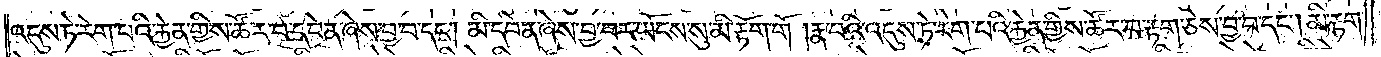འདུས་ཏེ་རེག་པའི་རྐྱེན་གྱིས་ཚོར་བ་དབེན་ཞེས་བྱ་བ་དང༌། མི་དབེན་ཞེས་བྱ་བར་ཡོངས་སུ་མི་རྟོག་གོ །རྣ་བའི་འདུས་ཏེ་རེག་པའི་རྐྱེན་གྱིས་ཚོར་བ་རྟག་ཅེས་བྱ་བ་དང༌། མི་རྟག་
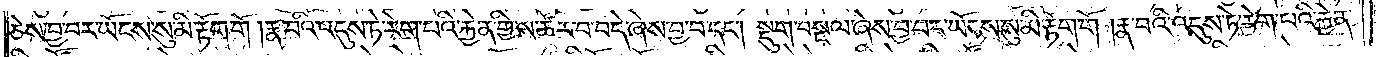ཅེས་བྱ་བར་ཡོངས་སུ་མི་རྟོག་གོ །རྣ་བའི་འདུས་ཏེ་རེག་པའི་རྐྱེན་གྱིས་ཚོར་བ་བདེ་ཞེས་བྱ་བ་དང༌། སྡུག་བསྔལ་ཞེས་བྱ་བར་ཡོངས་སུ་མི་རྟོག་གོ །རྣ་བའི་འདུས་ཏེ་རེག་པའི་རྐྱེན་
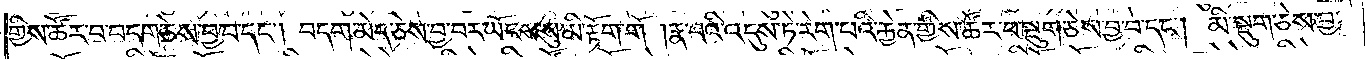གྱིས་ཚོར་བ་བདག་ཅེས་བྱ་བ་དང༌། བདག་མེད་ཅེས་བྱ་བར་ཡོངས་སུ་མི་རྟོག་གོ །རྣ་བའི་འདུས་ཏེ་རེག་པའི་རྐྱེན་གྱིས་ཚོར་བ་སྡུག་ཅེས་བྱ་བ་དང༌། མི་སྡུག་ཅེས་བྱ་
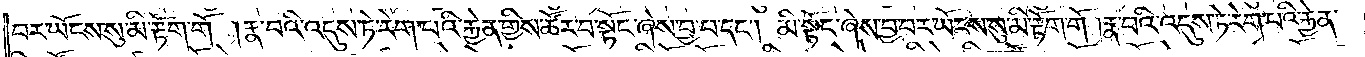བར་ཡོངས་སུ་མི་རྟོག་གོ །རྣ་བའི་འདུས་ཏེ་རེག་པའི་རྐྱེན་གྱིས་ཚོར་བ་སྟོང་ཞེས་བྱ་བ་དང༌། མི་སྟོང་ཞེས་བྱ་བར་ཡོངས་སུ་མི་རྟོག་གོ །རྣ་བའི་འདུས་ཏེ་རེག་པའི་རྐྱེན་
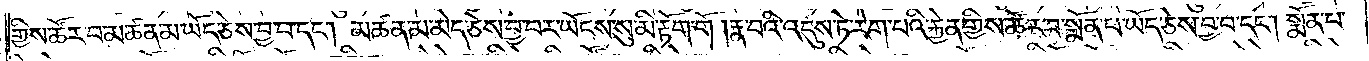གྱིས་ཚོར་བ་མཚན་མ་ཡོད་ཅེས་བྱ་བ་དང༌། མཚན་མ་མེད་ཅེས་བྱ་བར་ཡོངས་སུ་མི་རྟོག་གོ །རྣ་བའི་འདུས་ཏེ་རེག་པའི་རྐྱེན་གྱིས་ཚོར་བ་སྨོན་པ་ཡོད་ཅེས་བྱ་བ་དང༌། སྨོན་པ་
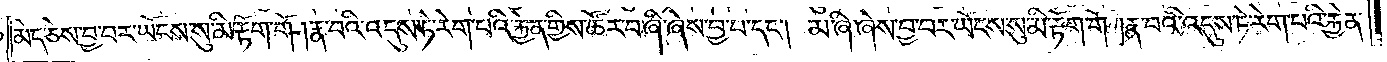མེད་ཅེས་བྱ་བར་ཡོངས་སུ་མི་རྟོག་གོ །རྣ་བའི་འདུས་ཏེ་རེག་པའི་རྐྱེན་གྱིས་ཚོར་བ་ཞི་ཞེས་བྱ་བ་དང༌། མ་ཞི་ཞེས་བྱ་བར་ཡོངས་སུ་མི་རྟོག་གོ །རྣ་བའི་འདུས་ཏེ་རེག་པའི་རྐྱེན་
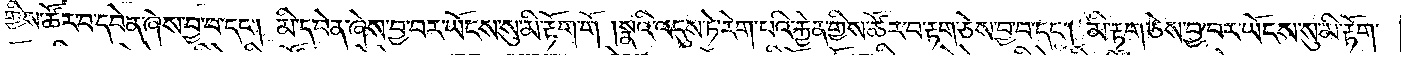གྱིས་ཚོར་བ་དབེན་ཞེས་བྱ་བ་དང༌། མི་དབེན་ཞེས་བྱ་བར་ཡོངས་སུ་མི་རྟོག་གོ །སྣའི་འདུས་ཏེ་རེག་པའི་རྐྱེན་གྱིས་ཚོར་བ་རྟག་ཅེས་བྱ་བ་དང༌། མི་རྟག་ཅེས་བྱ་བར་ཡོངས་སུ་མི་རྟོག་
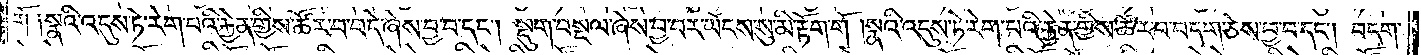གོ ༑སྣའི་འདུས་ཏེ་རེག་པའི་རྐྱེན་གྱིས་ཚོར་བ་བདེ་ཞེས་བྱ་བ་དང༌། སྡུག་བསྔལ་ཞེས་བྱ་བར་ཡོངས་སུ་མི་རྟོག་གོ །སྣའི་འདུས་ཏེ་རེག་པའི་རྐྱེན་གྱིས་ཚོར་བ་བདག་ཅེས་བྱ་བ་དང༌། བདག་
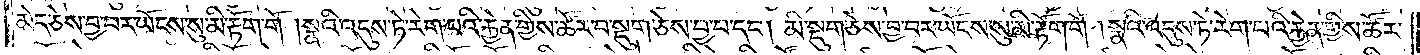མེད་ཅེས་བྱ་བར་ཡོངས་སུ་མི་རྟོག་གོ །སྣའི་འདུས་ཏེ་རེག་པའི་རྐྱེན་གྱིས་ཚོར་བ་སྡུག་ཅེས་བྱ་བ་དང༌། མི་སྡུག་ཅེས་བྱ་བར་ཡོངས་སུ་མི་རྟོག་གོ །སྣའི་འདུས་ཏེ་རེག་པའི་རྐྱེན་གྱིས་ཚོར་
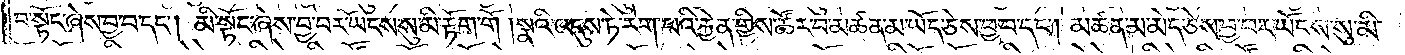བ་སྟོང་ཞེས་བྱ་བ་དང༌། མི་སྟོང་ཞེས་བྱ་བར་ཡོངས་སུ་མི་རྟོག་གོ །སྣའི་འདུས་ཏེ་རེག་པའི་རྐྱེན་གྱིས་ཚོར་བ་མཚན་མ་ཡོད་ཅེས་བྱ་བ་དང༌། མཚན་མ་མེད་ཅེས་བྱ་བར་ཡོངས་སུ་མི་
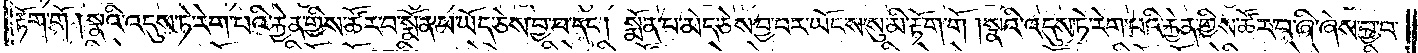རྟོག་གོ །སྣའི་འདུས་ཏེ་རེག་པའི་རྐྱེན་གྱིས་ཚོར་བ་སྨོན་པ་ཡོད་ཅེས་བྱ་བ་དང༌། སྨོན་པ་མེད་ཅེས་བྱ་བར་ཡོངས་སུ་མི་རྟོག་གོ །སྣའི་འདུས་ཏེ་རེག་པའི་རྐྱེན་གྱིས་ཚོར་བ་ཞི་ཞེས་བྱ་བ་
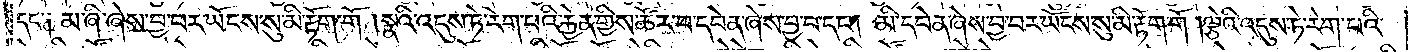དང༌། མ་ཞི་ཞེས་བྱ་བར་ཡོངས་སུ་མི་རྟོག་གོ །སྣའི་འདུས་ཏེ་རེག་པའི་རྐྱེན་གྱིས་ཚོར་བ་དབེན་ཞེས་བྱ་བ་དང༌། མི་དབེན་ཞེས་བྱ་བར་ཡོངས་སུ་མི་རྟོག་གོ །ལྕེའི་འདུས་ཏེ་རེག་པའི་
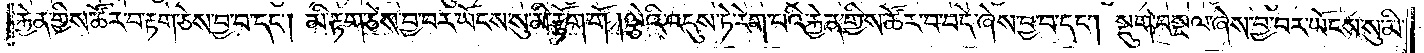རྐྱེན་གྱིས་ཚོར་བ་རྟག་ཅེས་བྱ་བ་དང༌། མི་རྟག་ཅེས་བྱ་བར་ཡོངས་སུ་མི་རྟོག་གོ །ལྕེའི་འདུས་ཏེ་རེག་པའི་རྐྱེན་གྱིས་ཚོར་བ་བདེ་ཞེས་བྱ་བ་དང༌། སྡུག་བསྔལ་ཞེས་བྱ་བར་ཡོངས་སུ་མི་
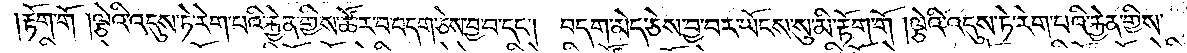རྟོག་གོ །ལྕེའི་འདུས་ཏེ་རེག་པའི་རྐྱེན་གྱིས་ཚོར་བ་བདག་ཅེས་བྱ་བ་དང༌། བདག་མེད་ཅེས་བྱ་བར་ཡོངས་སུ་མི་རྟོག་གོ །ལྕེའི་འདུས་ཏེ་རེག་པའི་རྐྱེན་གྱིས་
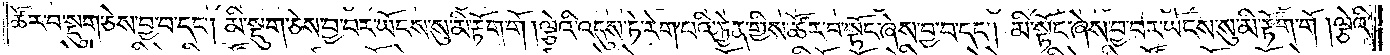ཚོར་བ་སྡུག་ཅེས་བྱ་བ་དང༌། མི་སྡུག་ཅེས་བྱ་བར་ཡོངས་སུ་མི་རྟོག་གོ །ལྕེའི་འདུས་ཏེ་རེག་པའི་རྐྱེན་གྱིས་ཚོར་བ་སྟོང་ཞེས་བྱ་བ་དང༌། མི་སྟོང་ཞེས་བྱ་བར་ཡོངས་སུ་མི་རྟོག་གོ །ལྕེའི་
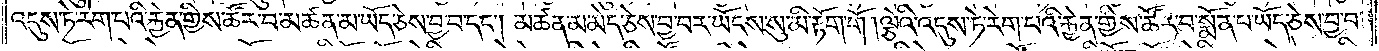འདུས་ཏེ་རེག་པའི་རྐྱེན་གྱིས་ཚོར་བ་མཚན་མ་ཡོད་ཅེས་བྱ་བ་དང༌། མཚན་མ་མེད་ཅེས་བྱ་བར་ཡོངས་སུ་མི་རྟོག་གོ །ལྕེའི་འདུས་ཏེ་རེག་པའི་རྐྱེན་གྱིས་ཚོར་བ་སྨོན་པ་ཡོད་ཅེས་བྱ་བ་
